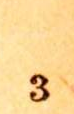3
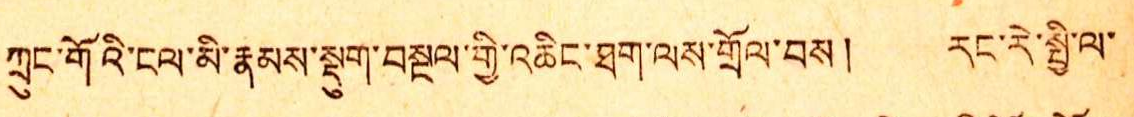ཀྲུང་གོའི་ངལ་མི་རྣམས་སྡུག་བསྔལ་གྱི་འཆིང་ཐག་ལས་གྲོལ་བས། རང་རེ་སྤྱི་ལ་
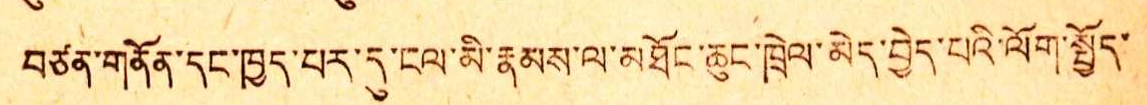བཙན་གནོན་དང་ཁྱད་པར་དུ་ངལ་མི་རྣམས་ལ་མཐོང་ཆུང་ཁྲེལ་མེད་བྱེད་པའི་ལོག་སྤྱོད་
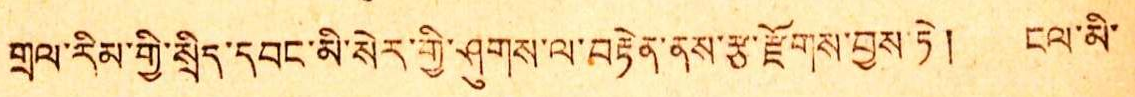གྲལ་རིམ་གྱི་སྲིད་དབང་མི་སེར་གྱི་ཤུགས་ལ་བརྟེན་ནས་རྩ་རྫོགས་བྱས་ཏེ། ངལ་མི་
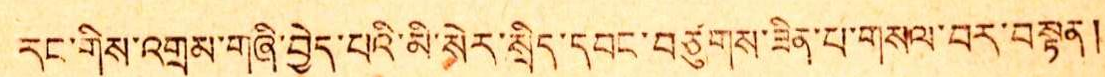རང་གིས་འགྲམ་གཞི་བྱེད་པའི་མི་སེར་སྲིད་དབང་བཙུགས་ཟིན་པ་གསལ་བར་བསྟན།
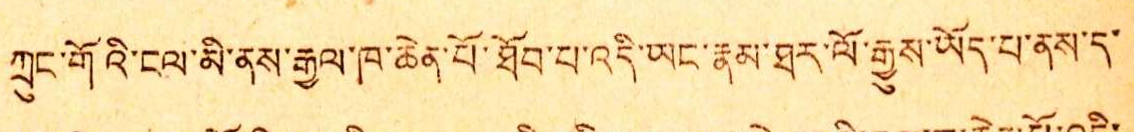ཀྲུང་གོའི་ངལ་མི་ནས་རྒྱལ་ཁ་ཆེན་པོ་ཐོབ་པ་འདི་ཡང་རྣམས་ཐར་ལོ་རྒྱུས་ཡོད་པ་ནས་ད་
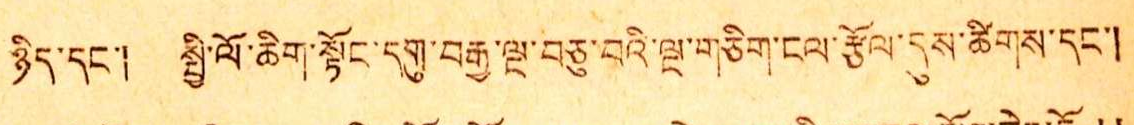ཉིད་དང་། སྤྱི་ལོ་ཆིག་སྟོང་དགུ་བརྒྱ་ལྔ་བཅུ་བའི་ལྔ་གཅིག་ངལ་རྩོལ་དུས་ཚིགས་དང་།
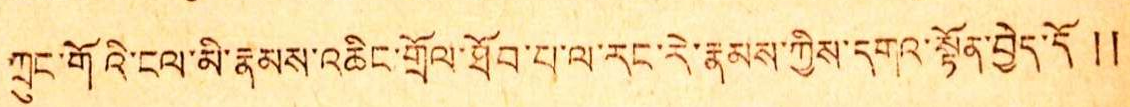ཀྲུང་གོའི་ངལ་མི་རྣམས་འཆིང་གྲོལ་ཐོབ་པ་ལ་རང་དེ་རྣམས་ཀྱིས་དགའ་སྟོན་བྱེད་དོ །།
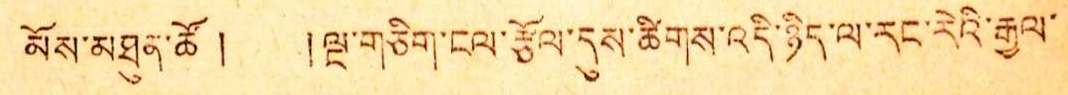མོས་མཐུན་ཚོ ། །ལྔ་གཅིག་ངལ་རྩོལ་དུས་ཚིགས་འདི་ཉིད་ལ་རང་རེའི་རྒྱལ་
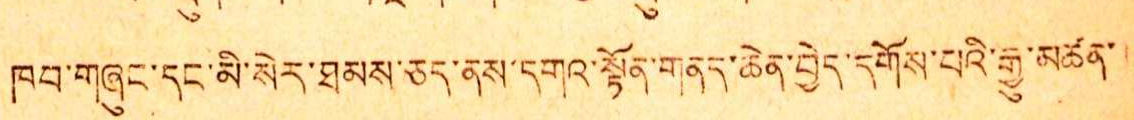ཁབ་གཞུང་དང་མི་སེར་ཐམས་ཅད་ནས་དགའ་སྟོན་གནད་ཆེན་བྱེད་དགོས་པའི་རྒྱུ་མཚན་
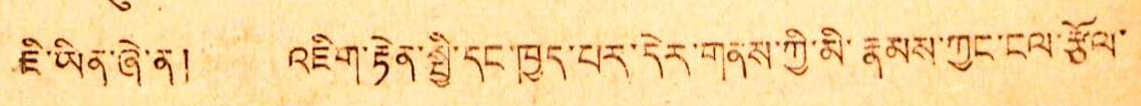ཇི་ཡིན་ཞེ་ན། འཇིག་རྟེན་སྤྱི་དང་ཁྱད་པར་དེར་གནས་ཀྱི་མི་རྣམས་ཀྱང་ངལ་རྩོལ་
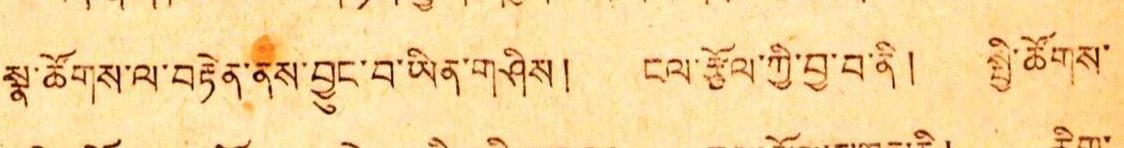སྣ་ཚོགས་ལ་བརྟེན་ནས་བྱུང་བ་ཡིན་གཤིས། ངལ་རྩོལ་ཀྱི་བྱ་བ་ནི། སྤྱི་ཚོགས་
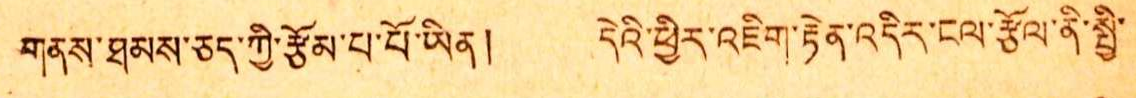གནས་ཐམས་ཅད་ཀྱི་རྩོམ་པ་པོ་ཡིན། དེའི་ཕྱིར་འཇིག་རྟེན་འདིར་ངལ་རྩོལ་ནི་སྤྱི་
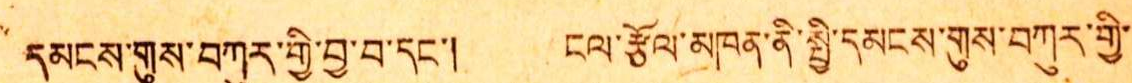དམངས་གུས་བཀུར་གྱི་བྱ་བ་དང་། ངལ་རྩོལ་མཁན་ནི་སྤྱི་དམངས་གུས་བཀུར་གྱི་
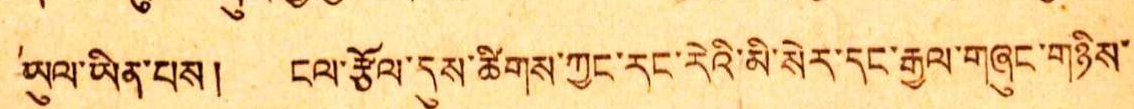ཡུལ་མིན་པས། ངལ་རྩོལ་དུས་ཚིགས་ཀྱང་རང་རེའི་མི་སེར་དང་རྒྱལ་གཞུང་གཉིས་
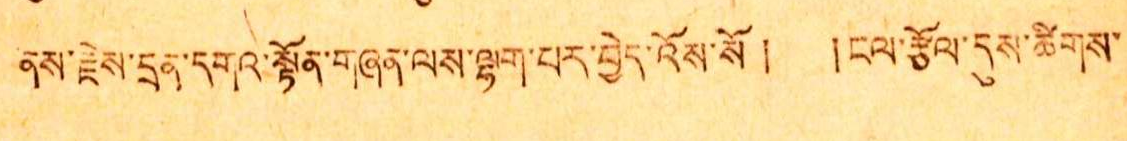ནས་རྗེས་དྲན་དགའ་སྟོན་གཞན་ལས་ལྷག་པར་བྱེད་འོས་སོ། །ངལ་རྩོལ་དུས་ཚིགས་
